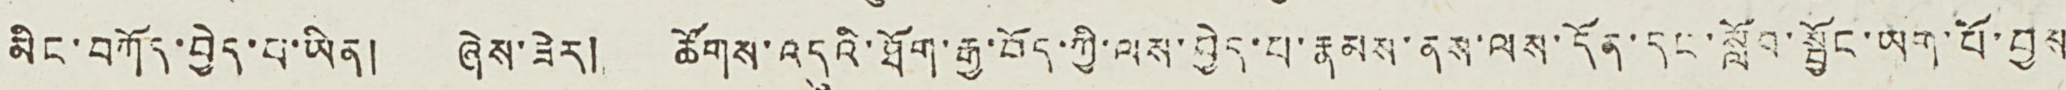མིང་བཀོད་བྱེད་པ་ཡིན། ཞེས་ཟེར། ཚོགས་འདུའི་ཐོག་རྒྱ་བོད་ཀྱི་ལས་བྱེད་པ་རྣམས་ནས་ལས་དོན་དང་སློབ་སྦྱོང་ཡག་པོ་བྱས
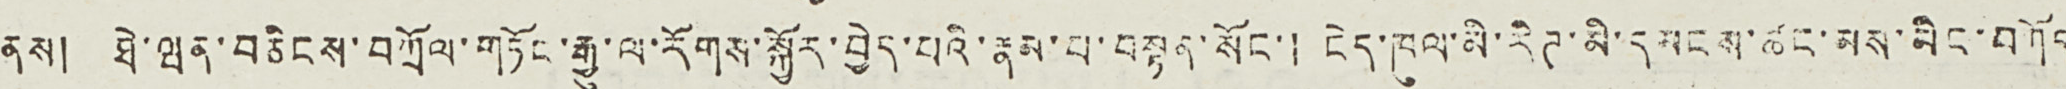ནས། ཐེ་ཝན་བཅིངས་བཀྲོལ་གཏོང་རྒྱུ་ལ་རོགས་སྐྱོར་བྱེད་པའི་རྣམ་པ་བསྟན་སོང་། ངེད་ཁུལ་མི་རིཊ་མི་དམངས་ཚང་མས་མིང་བཀོད
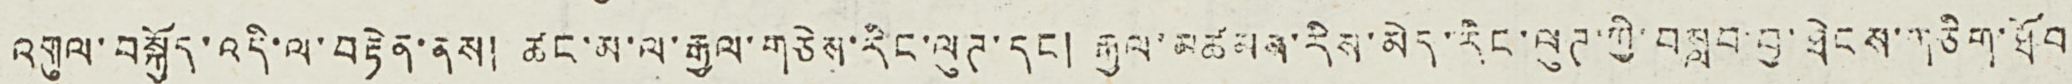འགུལ་བསྐྱོད་འདི་ལ་བརྟེན་ནས། ཚང་མ་ལ་རྒྱལ་གཅེས་རིང་ལུཊ་དང ། རྒྱལ་མཚམས་རིས་མེད་རིང་ལུཊ་ཀྱི་བསླབ་བྱ་ཐེངས་གཅིག་ཐོབ་
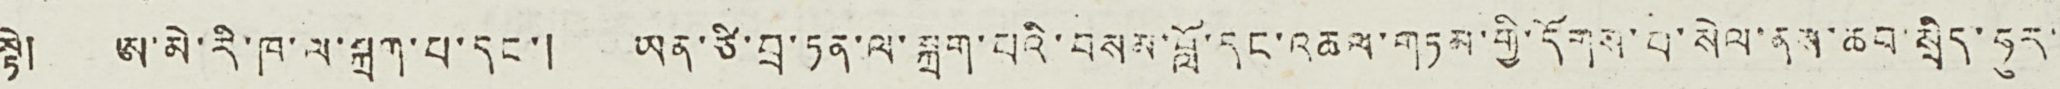སྟེ། ཨ་མེ་རི་ཁ་ལ་སྐྲག་པ་དང་། ཡན་ཙི་བྲ་ཏན་ལ་སྐྲག་པའི་བསམ་བློ་དང་འཆལ་གཏམ་གྱི་དོགས་པ་སེལ་ནས་ཆབ་སྲིད་ཧུར་་
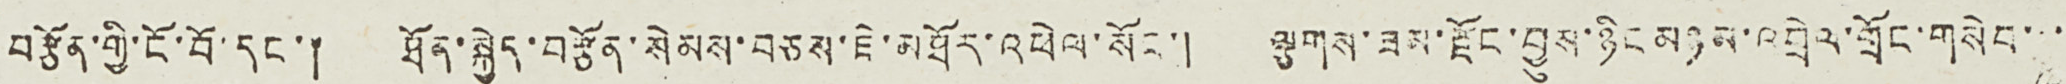བརྩོན་གྱི་ངོ་བོ་དང་། ཐོན་སྐྱེད་བརྩོན་སེམས་བཅས་ཇེ་མཐོར་འཕེལ་སོང་། ལྕགས་ཟམ་རྫོང་བྱུས་ཉིང མཉམ་འབྲེལ་གྲོང་གསེབ་་་་
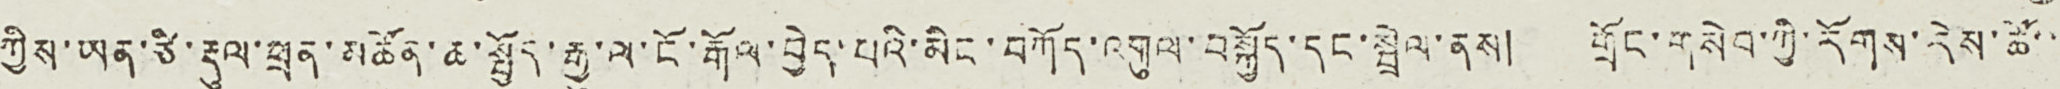ཀྱིས་ཡན་ཙི་རྡུལ་ཕྲན་མཚོན་ཆ་སྤྱོད་རྒྱུ་ལ་ངོ་རྒོལ་བྱེད་པའི་མིང་བཀོད་འགུལ་བསྐྱོད་དང་སྦྲེལ་ནས། གྲོང་གསེབ་ཀྱི་རོགས་རེས་ཚོ་་་
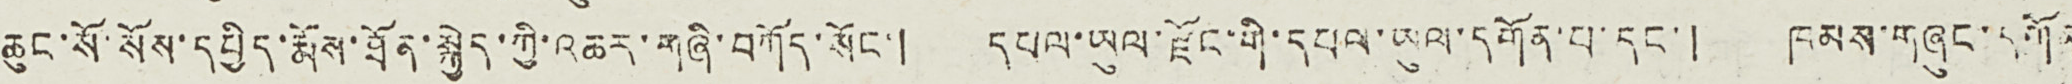ཆུང་སོ་སོས་དཔྱིད་རྨོས་ཐོན་སྐྱེད་ཀྱི་འཆར་གཞི་བཀོད་སོང་། དཔལ་ཡུལ་རྫོང་གི་དཔལ་ཡུལ་དགོན་པ་དང་། ཁམས་གཞུང་དགོན
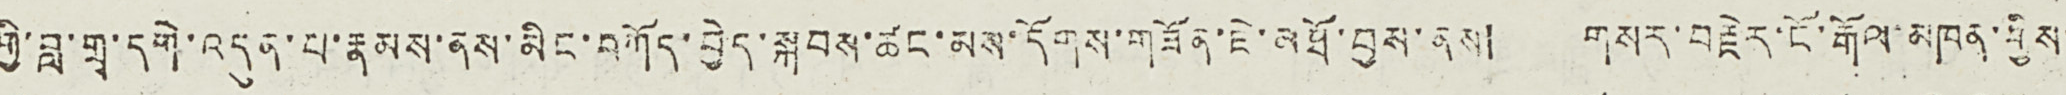གྱི་བླ་གྲྭ་དགེ་འདུན་པ་རྣམས་ནས་མིང་བཀོད་བྱེད་སྐབས་ཚང་མས་དོགས་གཟོན་ཇེ་མཐོ་བྱས་ནས། གསར་བརྗེར་ངོ་རྒོལ་མཁན་གྱིས་
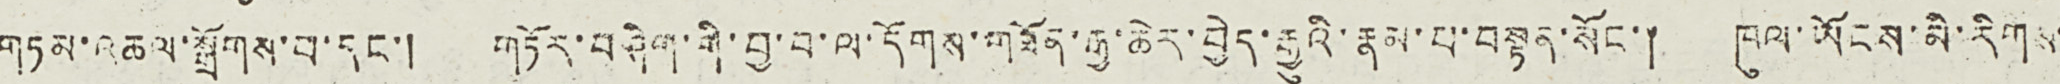གཏམ་འཆལ་སྒྲོགས་པ་དང་། གཏོར་བཤིག་གི་བྱ་བ་ལ་དོགས་གཟོན་རྒྱ་ཆེར་བྱེད་རྒྱུའི་རྣམ་པ་བསྟན་སོང་། ཁུལ་ཡོངས་མི་རིགས་
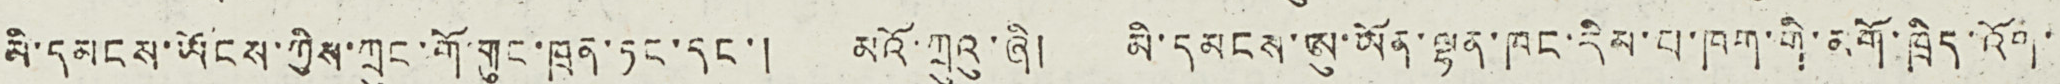མི་དམངས་ཡོངས་ཀྱིས་ཀྲུང་གོ་གུང་ཁྲན་ཏང་དང་། མའོ་ཀྲུའུ་ཞི། མི་དམངས་ཨུ་ཡོན་ལྷན་ཁང་རིམ་པ་ཁག་གི་མགོ་ཁྲིད་འོག་་
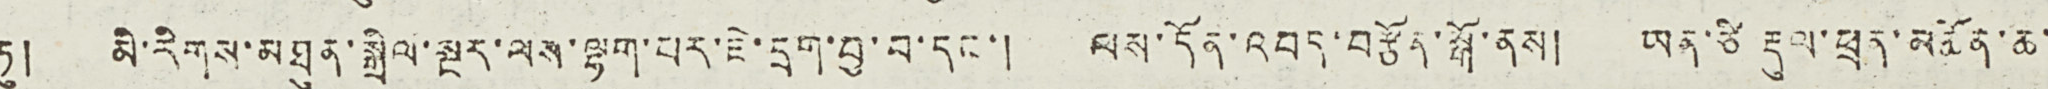ཏུ། མི་རིགས་མཐུན་སྒྲིལ་སྔར་ལས་ལྷག་པར་ཇེ་དྲག་བྱ་བ་དང་། ལས་དོན་འབད་བརྩོན་སྒོ་ནས། ཡན་ཙི རྡུལ་ཕྲན་མཚོན་ཆ་་
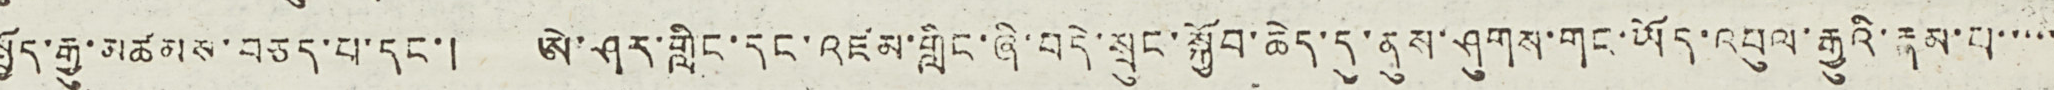སྤྱོད་རྒྱུ་མཚམས་བཅད་པ་དང་། ཨེ་ཤར་གླིང་དང་འཛམ་གླིང་ཞི་བདེ་སྲུང་སྐྱོབ་ཆེད་དུ་ནུས་ཤུགས་གང་ཡོད་འབུལ་རྒྱུའི་རྣམ་པ་་་་་
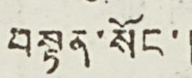བསྟན་སོང་།
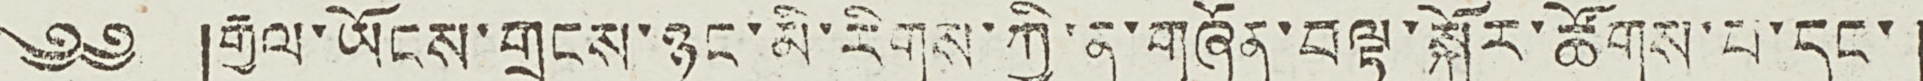༄༅ །རྒྱལ་ཡོངས་གྲངས་ཉུང་མི་རིགས་ཀྱི་ན་གཞོན་བལྟ་སྐོར་ཚོགས་པ་དང་།
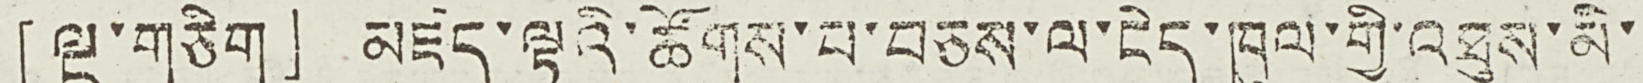「ལྔ་གཅིག」མཛད་ལྟའི་ཚོགས་པ་བཅས་ལ་ངེད་ཁུལ་གྱི་འཐུས་མི་
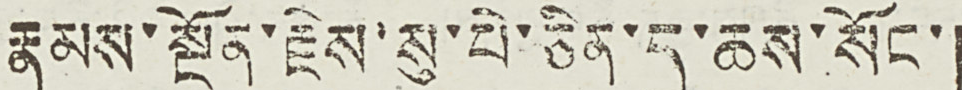རྣམས་སྔོན་རྗེས་སུ་པེ་ཅིན་དུ་ཆས་སོང་།
